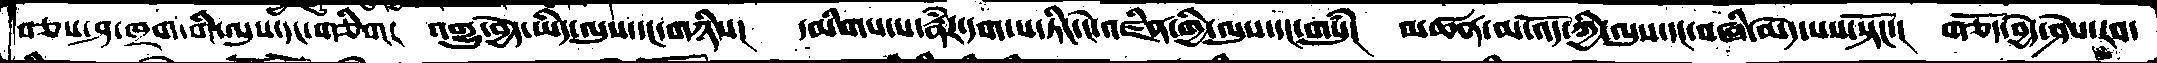བཅས་ཤ་ཁྲག་གི་ལུས་དང་གཅིག།  འགྱུ་བྱེད་ཡིད་ལུས་དང་གཉིས་།  དམིགས་པ་རྣཾར་དག་པ་ཏིང་ངེ་འཛིན་གྱི་ལུས་དང་གསུཾ།  མཚན་མ་འོད་ཀྱི་ལུས་དང་བཞི་མེད་པས་སྟོང་།  གཅོད་བྱེད་ཤེས་རབ་
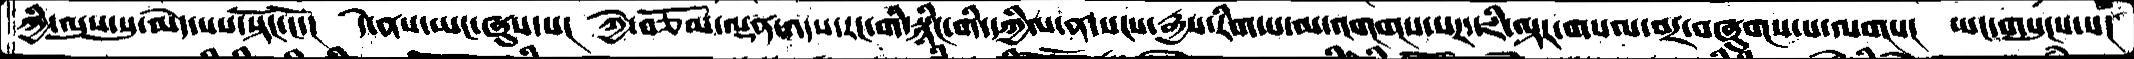ཀྱི་ལུས་སུ་མེད་པས་སྟོང་ངོ་།  དེ་ནས་ཡང་ཞུས་པ་།  ཀྱེ་བཅོམ་ལྡན་འདས་རང་གི་སྙིང་གི་དཀྱིལ་ན་སངས་རྒྱས་རིག་པ་མ་འགགས་པར་ཇི་ལྟར་གསལ་བར་བཞུགས་པ་ལགས།  ཡང་གསུངས་པ།
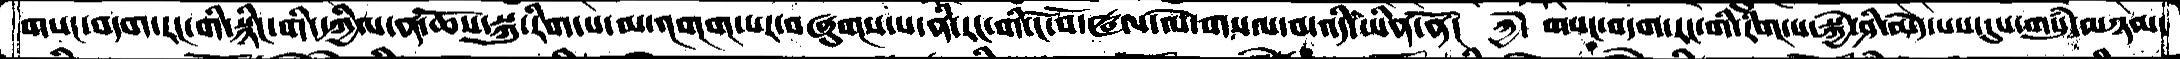གསང་བདག་རང་གི་སྙིང་གི་དཀྱིལ་ན་ཆོས་སྐུ་རིག་པ་མ་འགག་པར་བཞུགས་པ་ནི་རང་གི་ངོ་བོ་ཝལ་ལེ་གསལ་བ་འདི་ཡིན་ནོ།  ཀྱེ་  གསང་བདག་རང་གི་རིག་པ་སྐྱེ་ཤི་མེད་པས་དུས་གསུཾ་མཉམ་
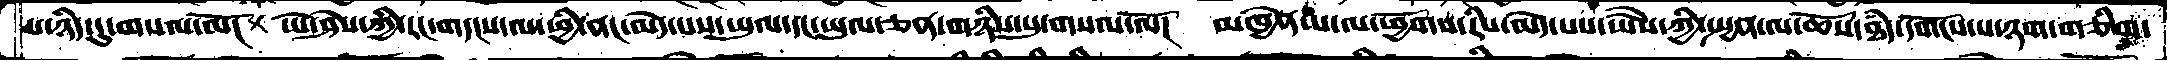པ་ཉིད་དུ་གསལ་ལོ་།  ཡེ་ཤེས་ཀྱི་རང་གདངས་ལ་ཕྱི་ནང་མེད་པས་ཡུལ་དང་ཡུལ་ཅན་གཉིས་སུ་གསལ་ལོ། མཁྱེན་པ་ལ་ཕྱོགས་རིས་མེད་པས་ཡཻས་ཀྱི་སྤྱན་ལ་ཆོས་ཐཾད་དགོངས་པ་ཉག་གཅིག་
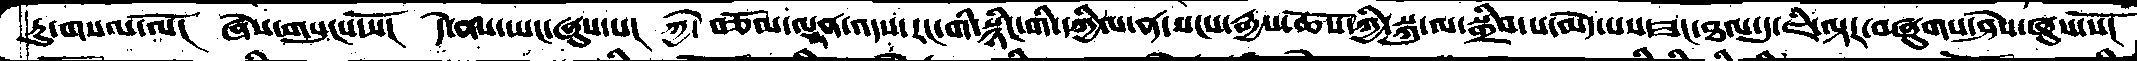རུ་གསལ་ལོ།  ཞེས་གསུངས་སོ་།  དེ་ནས་ཡང་ཞུས་པ།  ཀྱེ་  བཅོམ་ལྡན་འདས་རང་གི་སྙིང་གི་དཀྱིལ་ན་སངས་རྒྱས་ཆོས་ཀྱི་སྐུ་ལ་སྒྲིབ་པ་མེད་པས་ཟང་ཐལ་དུ་ཇི་ལྟར་བཞུགས་ཤེས་ཞུས་སོ།
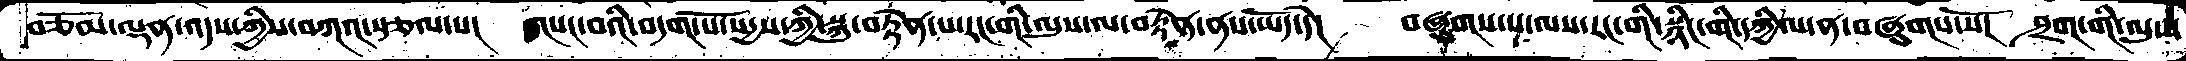བཅོམ་ལྡན་འདས་ཀྱིས་བཀའ་སྩལ་པ།  གསང་བའི་བདག་པོ་སདྱས་ཀྱི་སྐུ་བརྟེན་པ་རང་གི་ལུས་ལ་བརྟེན་ནས་ཡོད་དེ།  བཞུགས་པ་ལས་རང་གི་སྙིང་གི་དཀྱིལ་ན་བཞུགས་སོ།  ཤྲག་གི་ལུས་
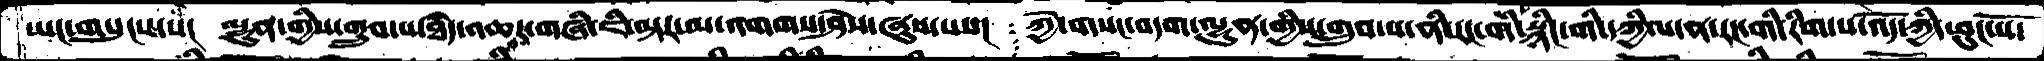ཡང་གསུངས་པ།  ལྷུན་གྱིས་གྲུབ་པ་ཐཾད་འཆར་གཞི་ཇི་ལྟར་མ་འགག་ཤེས་ཞུས་པས།  ཀྱེ་གསང་བདག་ལྷུན་གྱིས་གྲུབ་པ་ནི་རང་གི་སྙིང་གི་དཀྱིལ་ན་རང་གི་རིག་པ་འོད་ཀྱི་ཕུང་པོ་
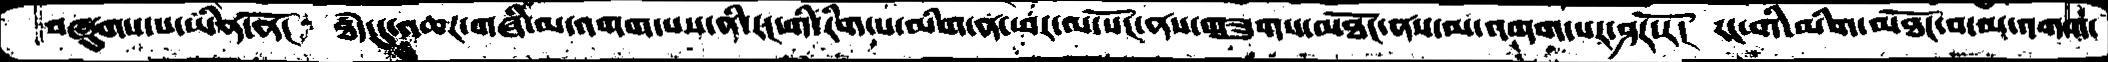བཞུགས་པ་ཡིན་ནོ།  ཐཾད་དུ་འཆར་གཞི་མ་འགག་པས་ནི་རང་གི་རིག་པ་མིག་ན་ཕར་ལ་སོང་ནས་གཟུགས་མཐོང་ནས་མ་འགག་པར་ཤར་རོ་།  རང་གི་མིག་མཐོང་བ་མ་འགག་
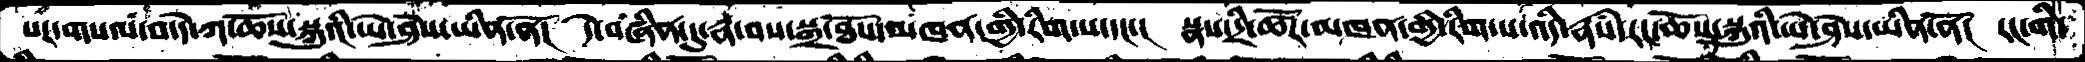པར་གསལ་བ་དེ་ཀ་ཆོས་སྐུའི་ཡེ་ཤེས་ཡིན་ནོ།  དེ་བཞིན་དུ་རྣ་བས་སྒྲ་ཐོས་མཁན་གྱི་རིག་པ་དང་།  སྣས་དྲི་ཚོར་མཁན་གྱི་རིག་པ་འདི་རྣཾས་རང་ཆོས་སྐུའི་ཡེ་ཤེས་ཡིན་ནོ།  རང་གི་
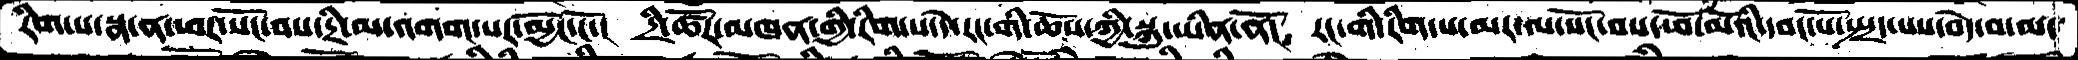རིག་པ་སྣ་ན་ཕར་སོང་བས་དྲི་མ་འགག་པར་མྱོང་ངོ་།  དྲི་ཚོར་མཁན་གྱི་རིག་པ་དེ་རང་གི་ཆོས་ཀྱི་སྐུ་ཡིན་ནོ།  རང་གི་རིག་པ་མར་ལ་སོང་བས་ཕོ་མོའི་དབང་པོ་སྤྲད་པས་བདེ་བ་ལ་
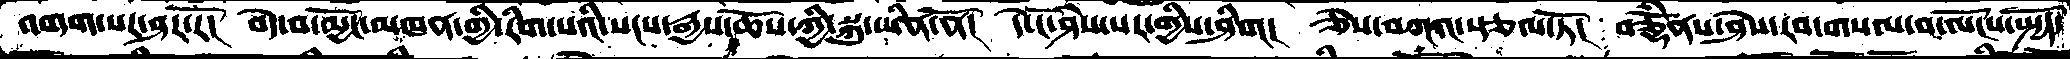འགག་པར་ཤར་རོ།  བདེ་བ་མྱོང་མཁན་གྱི་རིག་པའི་སངས་རྒྱས་ཀྱི་སྐུ་ཡིན་ནོ།  དེ་ངོ་ཤེས་པར་གྱིས་ཤིག།  ཅེས་བཀའ་སྩལ་ཏོ།  བཅྡོཾནས་ཤེས་རབ་གསལ་བ་ལོངས་སྤྱོད་
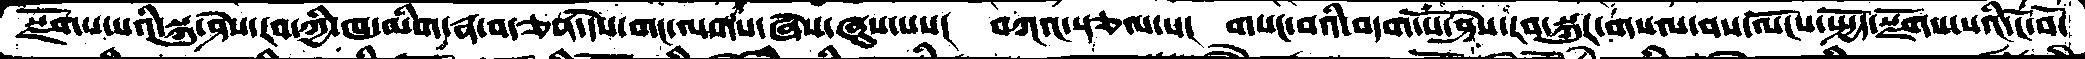སྫོགས་པའི་སྐུ་ཤེས་རབ་ཀྱྱི་ཁ་མིག་རྣ་བ་ཅན་དེས་གང་ལགས་ཞེས་ཞུས་པས།  བཀའ་སྩལ་པ།  གསང་བའི་བདག་པོ་ཤེས་རབ་སྐུར་གསལ་བས་ལོངས་སྤྱོད་སྫོགས་པའི་ངོ་བོ་
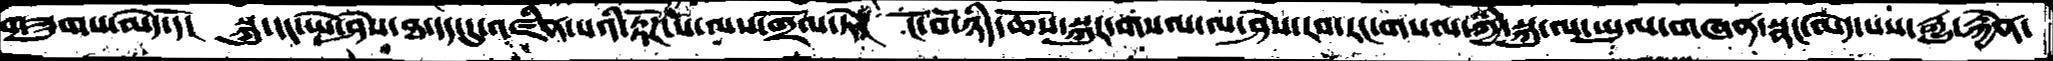གཟུགས་མེད་དོ།  སྐུ་དང་ཡེ་ཤེས་ཐ་དད་དུ་འཛིན་པའི་རྟོཌ་པ་ལས་གྲོལ་ཏེ།  ངོ་བོ་ཉིད་ཆོས་སྐུར་གསལ་ལ་ཤེས་རབ་རང་གསལ་གྱི་སྐུ་ལ་ཡུལ་གཞན་སྣང་མེད་པས་རྒྱུ་རྐྱེན་
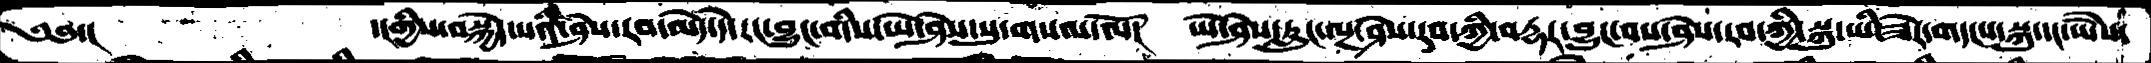༄༅་།       ་།གྱིས་བསྐྱེད་པའི་ཤེས་རབ་མེད་དེ་རང་བྱུང་གིས་ཡེ་ཤེས་སུ་གསལ་ལོ།  ཡེ་ཤེས་རླུང་ལྔ་ཤེས་རབ་ཀྱི་བརྡར་བྱུང་བས་ཤེས་རབ་ཀྱི་སྐུ་ཡི་ཟེར་གདངས་སྐུ་དང་ཡཻས་
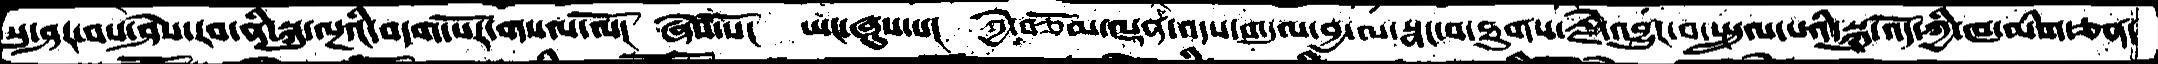སུ་ཤར་བས་ཤེས་རབ་ནི་སྐུ་ལྔའི་བདག་པོར་གསལ་ལོ།  ཞེས་སོ།  ཡང་ཞུས་པ།  ཀྱེ་བཅོམ་ལྡན་འདས་གདུལ་བྱ་སྣང་བ་ཐུགས་རྗེ་བྱུང་བ་སྤྲུལ་པའི་སྐུ་འོད་ཀྱི་ཁ་མིག་ཅན་
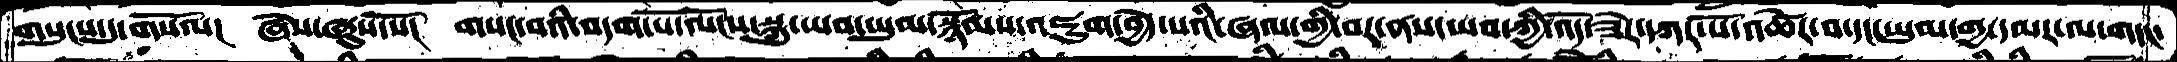གསུངས་དུ་གསོལ།  ཞེས་ཞུས་སོ།  གསང་བའི་བདག་པོ་ལོངས་སྐུ་ཡབ་ཡུམ་སྙོམས་འཇུག་བྱེད་པའི་ཞལ་ཀྱི་བར་ནས་ཡབ་ཀྱི་འོད་ཟེར་དཀར་པོ་འཚེར་བ་དང་ཡུམ་གྱ་དམར་ལ་གདང་
